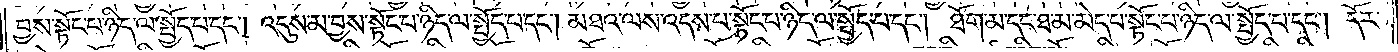བྱས་སྟོང་པ་ཉིད་ལ་སྤྱོད་པ་དང༌། འདུས་མ་བྱས་སྟོང་པ་ཉིད་ལ་སྤྱོད་པ་དང༌། མཐའ་ལས་འདས་པ་སྟོང་པ་ཉིད་ལ་སྤྱོད་པ་དང༌། ཐོག་མ་དང་ཐ་མ་མེད་པ་སྟོང་པ་ཉིད་ལ་སྤྱོད་པ་དང༌། དོར་
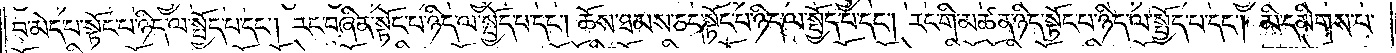བ་མེད་པ་སྟོང་པ་ཉིད་ལ་སྤྱོད་པ་དང༌། རང་བཞིན་སྟོང་པ་ཉིད་ལ་སྤྱོད་པ་དང༌། ཆོས་ཐམས་ཅད་སྟོང་པ་ཉིད་ལ་སྤྱོད་པ་དང༌། རང་གི་མཚན་ཉིད་སྟོང་པ་ཉིད་ལ་སྤྱོད་པ་དང༌། མི་དམིགས་པ་
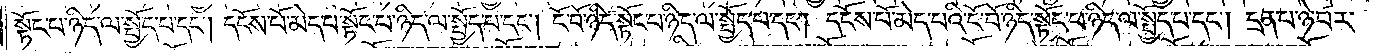སྟོང་པ་ཉིད་ལ་སྤྱོད་པ་དང༌། དངོས་པོ་མེད་པ་སྟོང་པ་ཉིད་ལ་སྤྱོད་པ་དང༌། ངོ་བོ་ཉིད་སྟོང་པ་ཉིད་ལ་སྤྱོད་པ་དང༌། དངོས་པོ་མེད་པའི་ངོ་བོ་ཉིད་སྟོང་པ་ཉིད་ལ་སྤྱོད་པ་དང༌། དྲན་པ་ཉེ་བར་
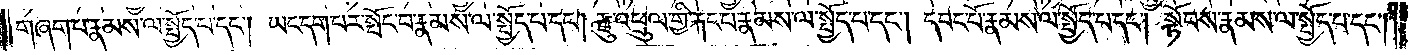གཞག་པ་རྣམས་ལ་སྤྱོད་པ་དང༌། ཡང་དག་པར་སྤོང་བ་རྣམས་ལ་སྤྱོད་པ་དང༌། རྫུ་འཕྲུལ་གྱི་རྐང་པ་རྣམས་ལ་སྤྱོད་པ་དང༌། དབང་པོ་རྣམས་ལ་སྤྱོད་པ་དང༌། སྟོབས་རྣམས་ལ་སྤྱོད་པ་དང༌།
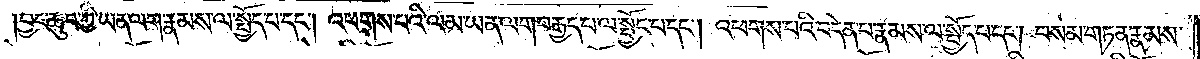བྱང་ཆུབ་ཀྱི་ཡན་ལག་རྣམས་ལ་སྤྱོད་པ་དང༌། འཕགས་པའི་ལམ་ཡན་ལག་བརྒྱད་པ་ལ་སྤྱོད་པ་དང༌། འཕགས་པའི་བདེན་པ་རྣམས་ལ་སྤྱོད་པ་དང༌། བསམ་གཏན་རྣམས་
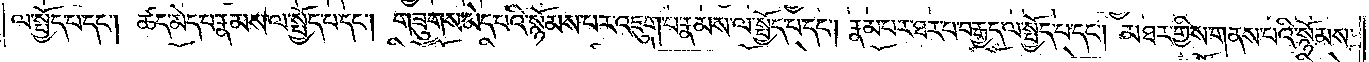ལ་སྤྱོད་པ་དང༌། ཚད་མེད་པ་རྣམས་ལ་སྤྱོད་པ་དང༌། གཟུགས་མེད་པའི་སྙོམས་པར་འཇུག་པ་རྣམས་ལ་སྤྱོད་པ་དང༌། རྣམ་པར་ཐར་པ་བརྒྱད་ལ་སྤྱོད་པ་དང༌། མཐར་གྱིས་གནས་པའི་སྙོམས་
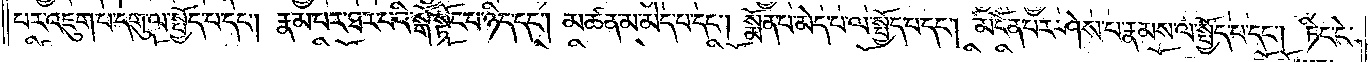པར་འཇུག་པ་དགུ་ལ་སྤྱོད་པ་དང༌། རྣམ་པར་ཐར་པའི་སྒོ་སྟོང་པ་ཉིད་དང༌། མཚན་མ་མེད་པ་དང༌། སྨོན་པ་མེད་པ་ལ་སྤྱོད་པ་དང༌། མངོན་པར་ཤེས་པ་རྣམས་ལ་སྤྱོད་པ་དང༌། ཏིང་ངེ་
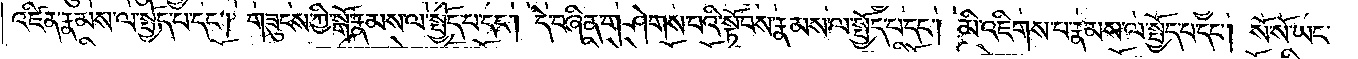འཛིན་རྣམས་ལ་སྤྱོད་པ་དང༌། གཟུངས་ཀྱི་སྒོ་རྣམས་ལ་སྤྱོད་པ་དང༌། དེ་བཞིན་གཤེགས་པའི་སྟོབས་རྣམས་ལ་སྤྱོད་པ་དང༌། མི་འཇིགས་པ་རྣམས་ལ་སྤྱོད་པ་དང༌། སོ་སོ་ཡང་
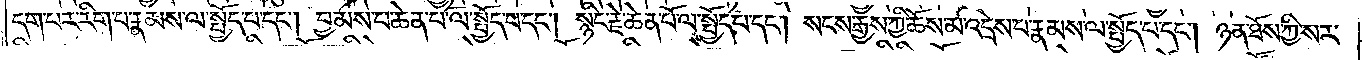དག་པར་རིག་པ་རྣམས་ལ་སྤྱོད་པ་དང༌། བྱམས་པ་ཆེན་པོ་ལ་སྤྱོད་པ་དང༌། སྙིང་རྗེ་ཆེན་པོ་ལ་སྤྱོད་པ་དང༌། སངས་རྒྱས་ཀྱི་ཆོས་མ་འདྲེས་པ་རྣམས་ལ་སྤྱོད་པ་དང༌། ཉན་ཐོས་ཀྱི་སར་
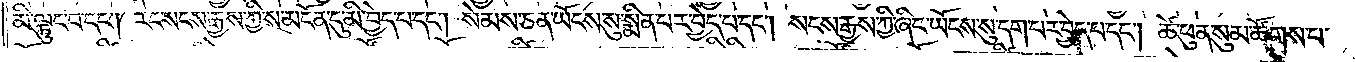མི་ལྟུང་བ་དང༌། རང་སངས་རྒྱས་ཀྱིས་མངོན་དུ་མི་བྱེད་པ་དང༌། སེམས་ཅན་ཡོངས་སུ་སྨིན་པར་བྱེད་པ་དང༌། སངས་རྒྱས་ཀྱི་ཞིང་ཡོངས་སུ་དག་པར་བྱེད་པ་དང༌། ཚེ་ཕུན་སུམ་ཚོགས་པ་
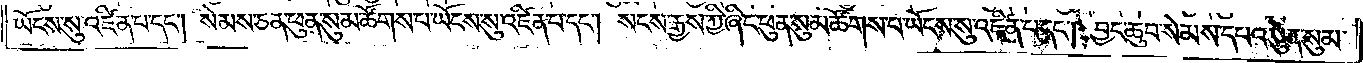ཡོངས་སུ་འཛིན་པ་དང༌། སེམས་ཅན་ཕུན་སུམ་ཚོགས་པ་ཡོངས་སུ་འཛིན་པ་དང༌། སངས་རྒྱས་ཀྱི་ཞིང་ཕུན་སུམ་ཚོགས་པ་ཡོངས་སུ་འཛིན་པ་དང༌། བྱང་ཆུབ་སེམས་དཔའ་ཕུན་སུམ་
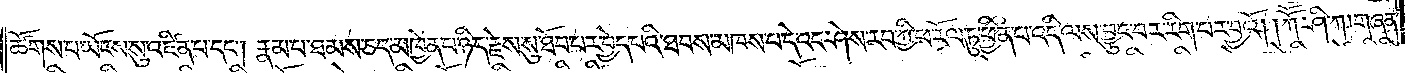ཚོགས་པ་ཡོངས་སུ་འཛིན་པ་དང༌། རྣམ་པ་ཐམས་ཅད་མཁྱེན་པ་ཉིད་རྗེས་སུ་ཐོབ་པར་བྱེད་པའི་ཐབས་མཁས་པ་དེའང་ཤེས་རབ་ཀྱི་ཕ་རོལ་ཏུ་ཕྱིན་པ་འདི་ལས་བྱུང་བར་རིག་པར་བྱའོ། །ཀཽ་ཤི་ཀ། གཞན་
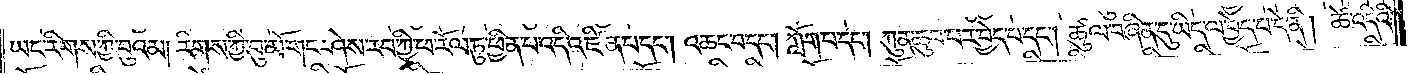ཡང་རིགས་ཀྱི་བུའམ། རིགས་ཀྱི་བུ་མོ་གང་ཤེས་རབ་ཀྱི་ཕ་རོལ་ཏུ་ཕྱིན་པ་འདི་འཛིན་པ་དང༌། འཆང་བ་དང༌། ཀློག་པ་དང༌། ཀུན་ཆུབ་པར་བྱེད་པ་དང༌། ཚུལ་བཞིན་དུ་ཡིད་ལ་བྱེད་པ་དེ་ནི། ཚེ་འདིའི་
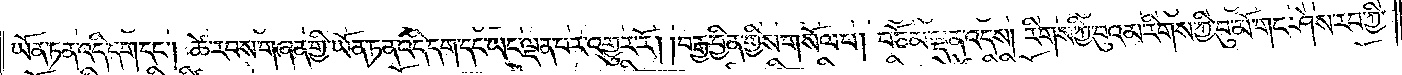ཡོན་ཏན་འདི་དག་དང༌། ཚེ་རབས་གཞན་གྱི་ཡོན་ཏན་འདི་དག་དང་ཡང་ལྡན་པར་འགྱུར་རོ། །བརྒྱ་བྱིན་གྱིས་གསོལ་པ། བཅོམ་ལྡན་འདས། རིགས་ཀྱི་བུའམ་རིགས་ཀྱི་བུ་མོ་གང་ཤེས་རབ་ཀྱི་
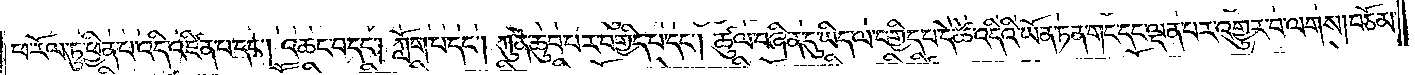ཕ་རོལ་ཏུ་ཕྱིན་པ་འདི་འཛིན་པ་དང༌། འཆང་བ་དང༌། ཀློག་པ་དང༌། ཀུན་ཆུབ་པར་བགྱིད་པ་དང༌། ཚུལ་བཞིན་དུ་ཡིད་ལ་བགྱིད་པ་དེ་ཚེ་འདིའི་ཡོན་ཏན་གང་དང་ལྡན་པར་འགྱུར་པ་ལགས། བཅོམ་
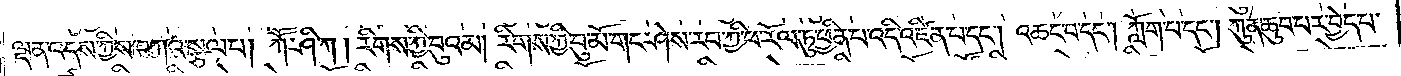ལྡན་འདས་ཀྱིས་བཀའ་སྩལ་པ། ཀཽ་ཤི་ཀ། རིགས་ཀྱི་བུའམ། རིགས་ཀྱི་བུ་མོ་གང་ཤེས་རབ་ཀྱི་ཕ་རོལ་ཏུ་ཕྱིན་པ་འདི་འཛིན་པ་དང༌། འཆང་བ་དང༌། ཀློག་པ་དང༌། ཀུན་ཆུབ་པར་བྱེད་པ་
